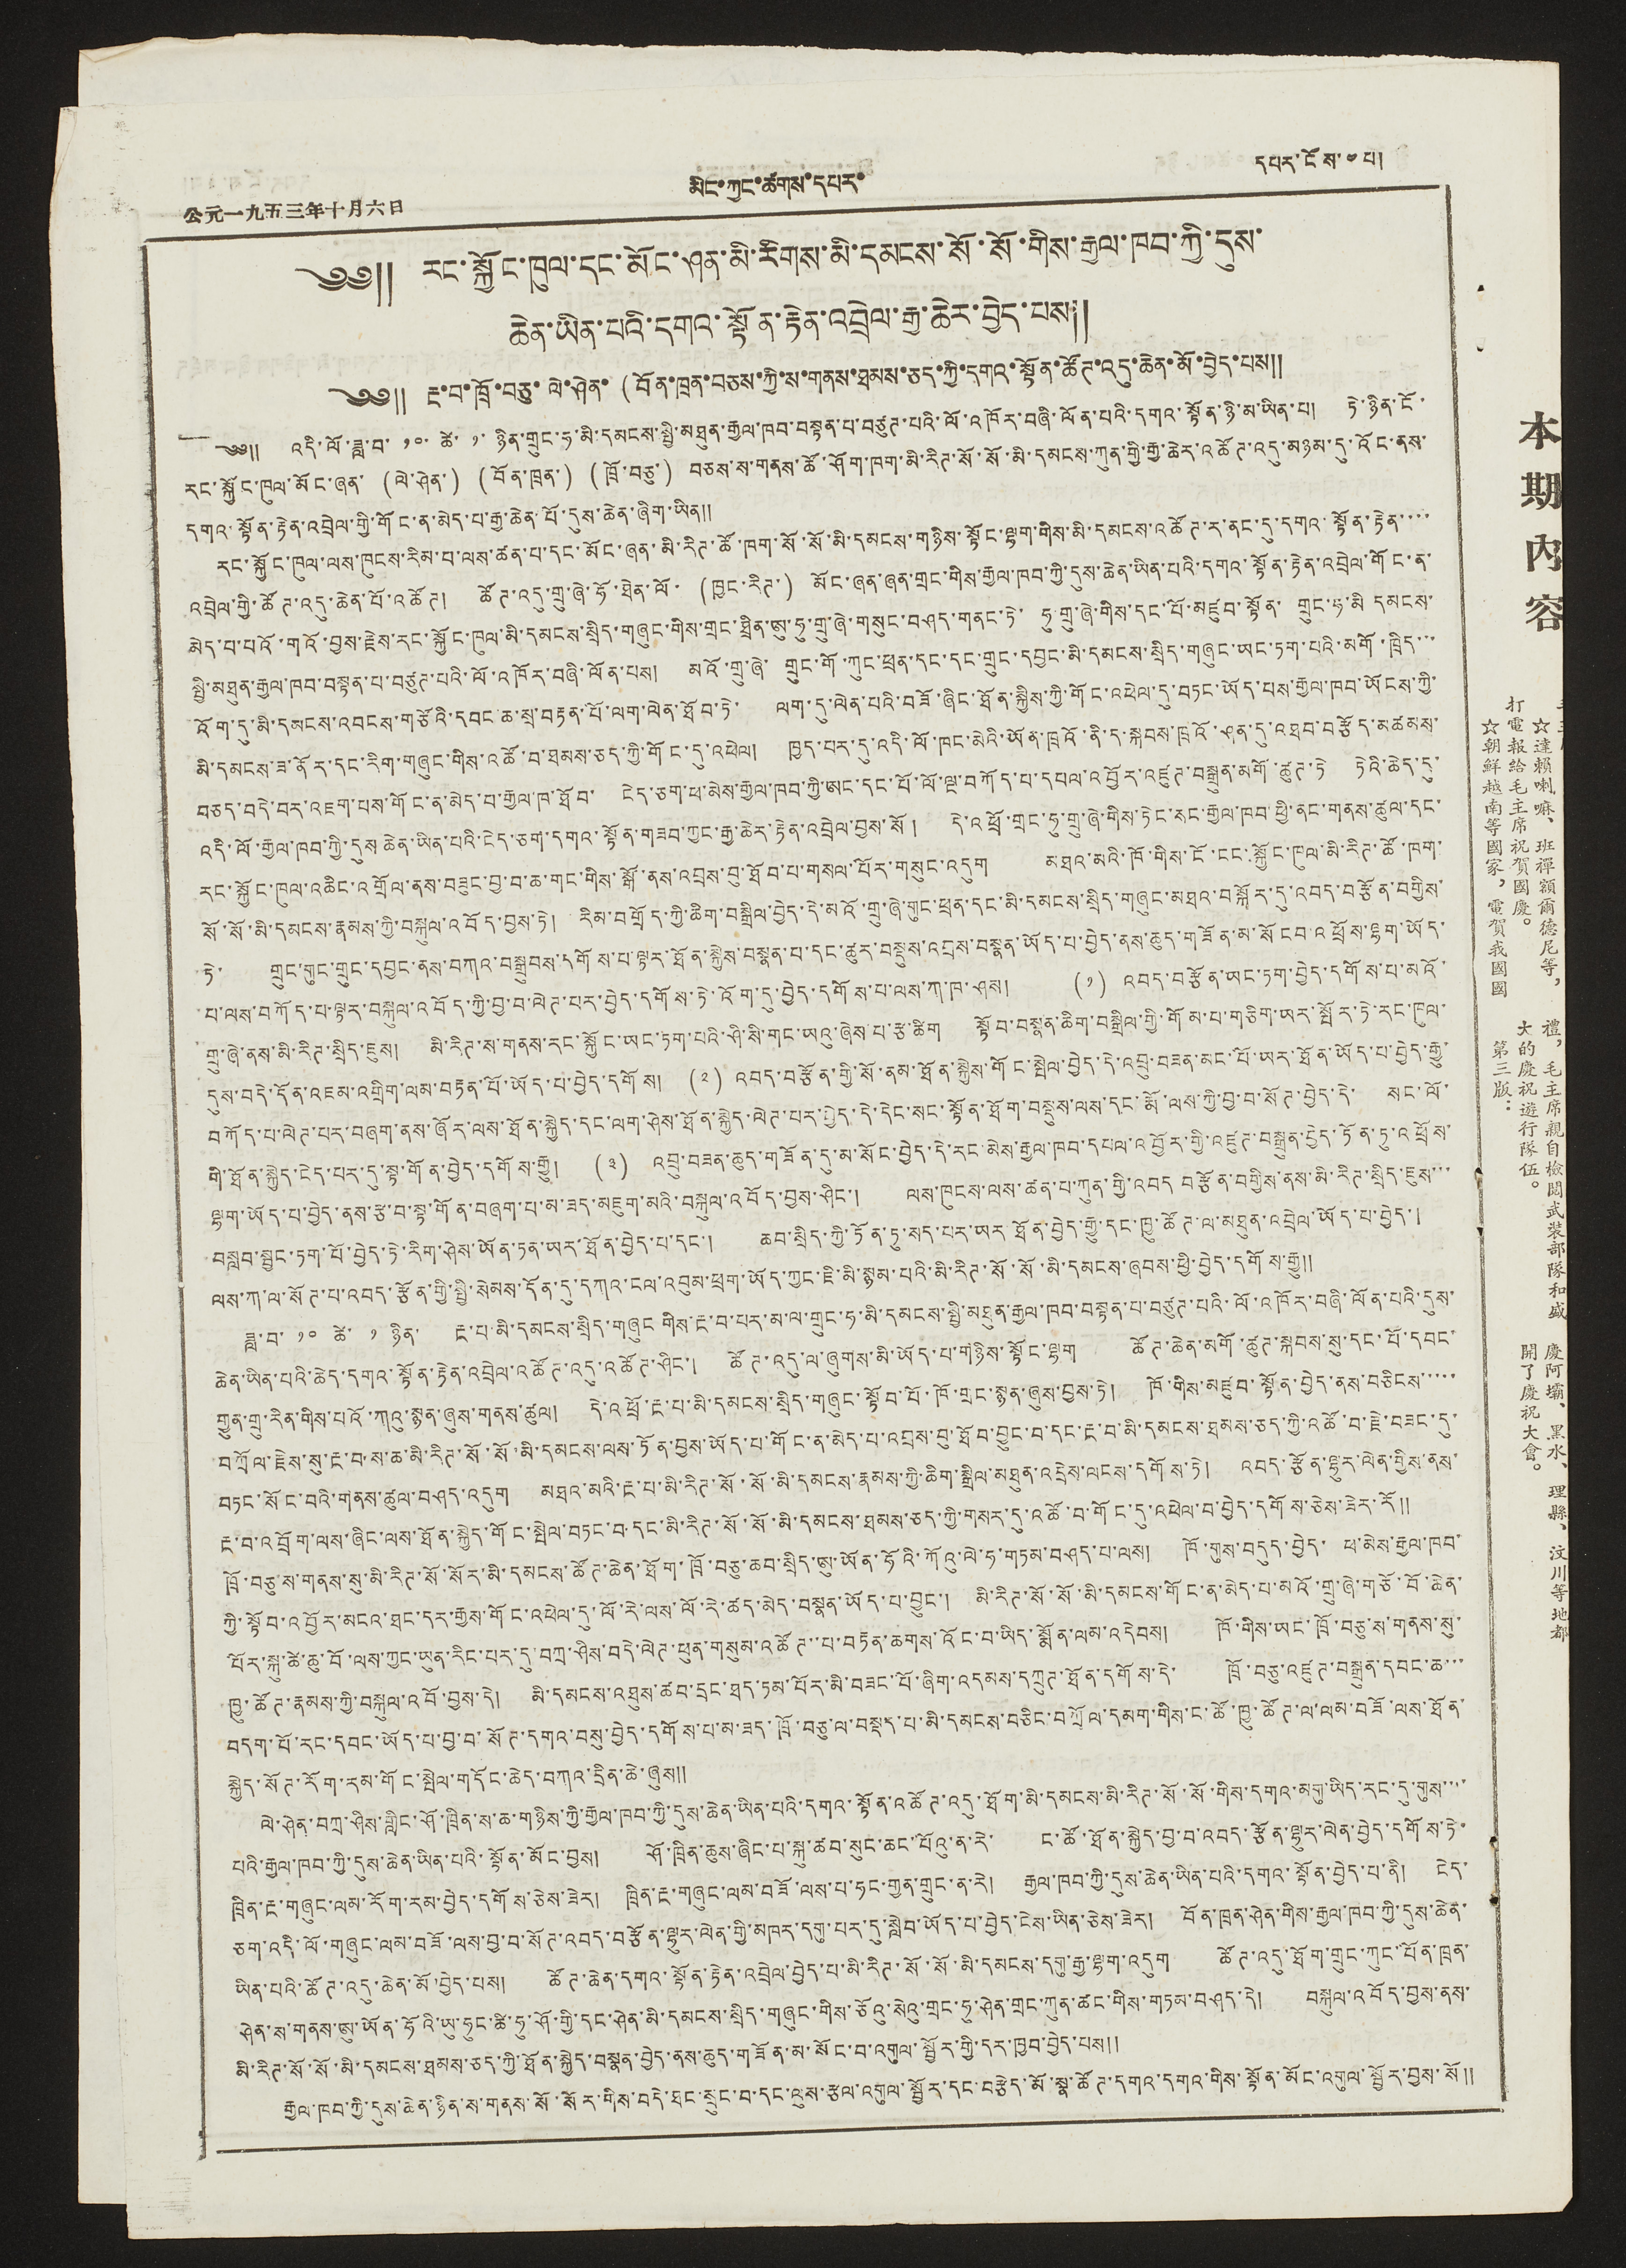公元一九五三年十月六日 མིང་ཀྱང་ཚགས་དཔར་ དཔར་ངོས་ ༤ པ།
༄༅༎ རང་སྐྱོང་ཁུལ་དང་མོང་ཤན་མི་རིགས་མི་དམངས་སོ་སོ་གིས་རྒྱལ་ཁབ་ཀྱི་དུས་
ཆེན་ཡིན་པའི་དགའ་སྟོན་རྟེན་འབྲེལ་རྒྱ་ཆེར་བྱེད་པས༎
༄༅༎ རྔ་བ་ཁྲོ་བཅུ་ལེ་ཤེན་ (བོན་ཁྲན་བཅས་ཀྱི་ས་གནས་ཐམས་ཅད་ཀྱི་དགའ་སྟོན་ཚོཊ་འདུ་ཆེན་མོ་བྱེད་པས༎
༄༅༎ འདི་ལོ་ཟླ་བ་ ༡༠་ ཚེ་ ༡་ ཉིན་གྲུང་ཧ་མི་དམངས་སྤྱི་མཐུན་རྒྱལ་ཁབ་བསྟན་པ་བཙུཊ་པའི་ལོ་འཁོར་བཞི་ལོན་པའི་དགའ་སྟོན་ཉི་མ་ཡིན་པ། ཏེ་ཉིན་ངོ་
རང་སྐྱོང་ཁུལ་མོང་ཞན་ (ལེ་ཤེན་) (བོན་ཁྲན་) (ཁྲོ་བཅུ་) བཅས་ས་གནས་ཚོ་ཤོག་ཁག་མི་རིཊ་སོ་སོ་མི་དམངས་ཀུན་གྱི་རྒྱ་ཆེར་འཚོཊ་འདུ་མཉམ་དུ་འོང་ནས་
དགའ་སྟོན་རྟེན་འབྲེལ་གྱི་གོང་ན་མེད་པ་རྒྱ་ཆེན་པོ་དུས་ཆེན་ཞིག་ཡིན༎
རང་སྐྱོང་ཁུལ་ལས་ཁུངས་རིམ་པ་ལས་ཚན་པ་དང་མོང་ཞན་མི་རིཊ་ཚོ་ཁག་སོ་སོ་མི་དམངས་གཉིས་སྟོང་ལྷག་གིས་མི་དམངས་འཚོཊ་ར་ནང་དུ་དགའ་སྟོན་རྟེན་་་་
འབྲེལ་གྱི་ཚོཊ་འདུ་ཆེན་པོ་འཚོཊ། ཚོཊ་འདུ་གྲུ་ཞེ་ཧོ་ཐེན་ལོ་ (ཁྱང་རིཊ་) མོང་ཞན་ཞན་གྲང་གིས་རྒྱལ་ཁབ་ཀྱི་དུས་ཆེན་ཡིག་པའི་དགའ་སྟོན་རྟེན་འབྲེལ་གོང་ན་
མེད་པ་པའོ་གའོ་བྱས་རྗེས་རང་སྐྱོང་ཁུལ་མི་དམངས་སྲིད་གཞུང་གིས་གྲང་ཐྲིན་ཨུ་ཧུ་གྲུ་ཞེ་གསུང་བཤད་གནས་ཏེ་ ཧུ་གྲུ་ཞེ་གིས་དང་པོ་མཛུབ་སྟོན་ གྲུང་ཧ་མི དམངས་
སྤྱི་མཐུན་རྒྱལ་ཁབ་བསྟན་པ་བཙུཊ་པའི་ལོ་འཁོར་བཞི་ལོན་པས། མའོ་གྲུ་ཞེ་ གྲུང་གོ་ཀུང་ཕྲན་དང་དང་གྲུང་དབྱང་མི་དམངས་སྲིད་གཞུང་ཡང་ཏག་པའི་མགོ་ཁྲིད་་་
འོག་དུ་མི་དམངས་འབངས་གཙོའི་དབང་ཆ་སྲ་བརྟན་པོ་ལག་ལེན་ཐོབ་ཏེ་ ལག་དུ་ལེན་པའི་བཟོ་ཞིང་ཐོན་སྐྱིས་ཀྱི་གོང་འཕེལ་དུ་བཏང་ཡོད་པས་རྒྱལ་ཁབ་ཡོངས་ཀྱི་
མི་དམངས་ཟ་ནོར་དང་རིག་གཞུང་གིས་འཚོ་བ་ཐམས་ཅད་ཀྱི་གོང་དུ་འཕེལ། ཁྱད་པར་དུ་འདི་ལོ་ཁང་མེའི་ཡོན་ཁྲའོ་ནི་ད་སྐབས་ཁྲའོ་ཤན་དུ་འཐབ་བརྩོད་མཚམས་
བཅད་བདེ་བར་འཇག་པས་གོང་ན་མེད་པ་རྒྱལ་ཁ་ཐོབ་ ངེད་ཅག་ཕ་མེས་རྒྱལ་ཁབ་ཀྱི་ཨང་དང་པོ་ལོ་ལྔ་བཀོད་པ་དཔལ་འབྱོར་འཛུཊ་བསྒྲུན་མགོ་ཚུཊ་ཏེ ཏེའི་ཆེད་དུ་
འདི་ལོ་རྒྱལ་ཁབ་ཀྱི་དུས ཆེན་པའི་ངེད་ཅག་དགའ་སྟོན་གཟབ་ཀྱང་རྒྱ་ཆེར་རྟེན་འབྲེལ་བྱས་སོ ། དེ་འཕྲོ་གྲང་ཧུ་གྲུ་ཞེ་གིས་ཏེང་སང་རྒྱལ་ཁབ་ཕྱི་ནང་གནས་ཚུལ་དང་
རང་སྐྱོང་ཁུལ་འཆིང་འགྲོལ་ནས་བཟུང་བྱ་བ་ཆ་གང་གིས་སྒོ་ནས་འབྲས་བུ་ཐོབ་པ་གསལ་པོར་གསུང་འདུག མཐའ་མའི་ཁོ་གིས་ངོ་ངང་སྐྱོང་ཁུལ་མི་རིཊ་ཚོ་ཁག་
སོ་སོ་མི་དམངས་རྣམས་ཀྱི་བསྐུལ་འབོད་བྱས་ཏེ། རིམ་བགྲོད་ཀྱི་ཆིག་བསྒྲིལ་བྱེད་དེ་མའོ་གྲུ་ཞེ་གུང་ཕྲན་དང་མི་དམངས་སྲིད་གཞུང་མཐའ་བསྐོར་དུ་འབད་བརྩོན་བགྱིས་
ཏེ་ གྲུང་གུང་གྲུང་དབྱང་ནས་བཀའ་བསྒྲུབས་དགོས་པ་ལྟར་ཐོན་སྐྱེས་བསྣན་པ་དང་ཚུར་བསྡུས་འབྲས་བསྣན་ཡོད་པ་བྱེད་ནས་ཆུད་གཟོན་མ་སོང བ་འཕྲོས་ལྷག་ཡོད་
པ་ལས་བཀོད་པ་ལྟར་བསྐུལ་འབོད་ཀྱི་བྱ་བ་ལེཊ་པར་བྱེད་དགོས་ཏེ་འོག་དུ་བྱེད་དགོས་པ་ལས་ཀ་ཁ་ཤས། (༡) འབད་བརྩོན་ཡང་ཏག་བྱེད་དགོས་པ་མའོ་
གྲུ་ཞེ་ནས་མི་རིཊ་སྲིད་ཇུས། མི་རིཊ་ས་གནས་རང་སྐྱོང་ཡང་ཏག་པའི་ཤི་སི་གང་ཡའུ་ཞེས་པ་རྩ་ཚིག སྟོབ་བསྣན་ཆིག་བསྒྲིལ་གྱི་གོམ་པ་གཅིག་ཡར་སྤོར་ཏེ་རང་ཁུལ་
དུས་བདེ་དོན་འཇམ་འགྲིག་ལམ་བརྟན་པོ་ཡོད་པ་བྱེད་དགོས། (༢) འབད་བརྩོན་གྱི་སོ་ནམ་ཐོན་སྐྱེས་གོང་སྤེལ་བྱེད་དེ་འབྲུ་བཟན་མང་པོ་ཡར་ཐོན་ཡོད་པ་བྱེད་རྒྱུ་
བཀོད་པ་ལེཊ་པར་བཞག་ནས་ཞོར་ལས་ཐོན་སྐྱེད་དང་ལག་ཤེས་ཐོན་སྐྱེད་ལེཊ་པར་བྱེད་དེ་དེང་སང་སྟོན་ཐོག་བསྡུས་ལས་དང་རྨོ་ལས་ཀྱི་བྱ་བ་སོཊ་བྱེད་དེ་ སང་ལོ་
གི་ཐོན་སྐྱེད་ངེད་པར་དུ་སྟ་གོན་བྱེད་དགོས་རྒྱུ། (༣) འབྲུ་བཟན་ཆུད་གཟོན་དུ་མ་སོང་བྱེད་དེ་རང་མེས་རྒྱལ་ཁབ་དཔལ་འབྱོར་གྱི་འཛུཊ་བསྒྲུན་བྱེད་ཏོན་ཏུ་འཕྲོས་
ལྷག་ཡོད་པ་བྱེད་ནས་རྩ་བ་སྟ་གོན་བཞག་པ་མ་ཟད་མཇུག་མའི་བསྐུལ་འབོད་བྱས་ཤིང་། ལས་ཁུངས་ལས་ཚན་པ་ཀུན་གྱི་འབད བརྩོན་བགྱིས་ནས་མི་རིཊ་སྲིད་ཇུས་་་
བསླབ་སྦྱང་ཏག་པོ་བྱེད་ཏེ་རིག་ཤེས་ཡོན་ཏན་ཡར་ཐོན་བྱེད་པ་དང་། ཆབ་སྲིད་ཀྱི་ཏོན་ཏུ་སད་པར་ཡར་ཐོན་བྱེད་རྒྱུ་དང་ཁྱུ་ཚོཊ་ལ་མཐུན་འབྲེལ་ཡོད་པ་བྱེད་།
ལས་ཀ་ལ་སོཊ་པ་འབད་རྩོན་གྱི་སྤྱི་སེམས་དོན་དུ་དཀའ་ངལ་འབུམ་ཕྲག་ཡོད་ཀྱང་ཇི་མི་སྙམ་པའི་མི་རིཊ་སོ་སོ་མི་དམངས་ཞབས་ཕྱི་བྱེད་དགོས་རྒྱུ༎
ཟླ་བ་ ༡༠ ཚེ་ ༡ ཉིན་ རྔ་པ་མི་དམངས་སྲིད་གཞུང གིས་རྔ་བ་པར་མ་ལ་གྲུང་ཧ་མི་དམངས་སྤྱི་མཐུན་རྒྱལ་ཁབ་བསྟན་པ་བཙུཊ་པའི་ལོ་འཁོར་བཞི་ལོན་པའི་དུས་
ཆེན་ཡིན་པའི་ཆེད་དགའ་སྟོན་རྟེན་འབྲེལ་འཚོཊ་འདུ་འཚོཊ་ཤིང་། ཚོཊ་འདུ་ལ་ཞུགས་མི་ཡོད་པ་གཉིས་སྟོང་ལྷག ཚོཊ་ཆེན་མགོ་ཚུཊ་སྐབས་སུ་དང་པོ་དབང་
གྱུན་གྲུ་རིན་གིས་པའོ་ཀའུ་སྙན་ཞུས་གནས་ཚུལ། དེ་འཕྲོ་རྔ་པ་མི་དམངས་སྲིད་གཞུང་སྟོབ་པོ་ཁོ་གྲང་སྙན་ཞུས་བྱས་ཏེ། ཁོ་གིས་མཛུབ་སྟོན་བྱེད་ནས་བཅིངས་་་་་
བཀྲོལ་རྗེས་སུ་རྔ་བ་ས་ཆ་མི་རིཊ་སོ་སོ་མི་དམངས་ལས་ཏོན་བྱས་ཡོད་པ་གོང་ན་མེད་པ་འབྲས་བུ་ཐོབ་བྱུང་བ་དང་རྔ་བ་མི་དམངས་ཐམས་ཅད་ཀྱི་འཚོ་བ་རྗེ་བཟང་དུ་
བཏང་སོང་བའི་གནས་ཚུལ་བཤད་འདུག མཐའ་མའི་རྔ་པ་མི་རིཊ་སོ་སོ་མི་དམངས་རྣམས་ཀྱི་ཆིག་སྒྲིལ་མཐུན་འདྲེས་ལངས་དགོས་ཏེ། འབད་རྩོན་ལྷུར་ལེན་གྱིས་ནས་
རྔ་བ་འབྲོག་ལས་ཞིང་ལས་ཐོན་སྐྱེད་གོང་སྤེལ་བཏང་བ་དང་མི་རིཊ་སོ་སོ་མི་དམངས་ཐམས་ཅད་ཀྱི་གསར་དུ་འཚོ་བ་གོང་དུ་འཕེལ་བ་བྱེད་དགོས་ཅེས་ཟེ་རོ༎
ཁྲོ་བཅུ་ས་གནས་སུ་མི་རིཊ་སོ་སོར་མི་དམངས་ཚོཊ་ཆེན་ཐོག་ཁྲོ་བཅུ་ཆབ་སྲིད་ཨུ་ཡོན་ཧོའི་ཀོའུ་ལེ་ཧ་གཏམ་བཤད་པ་ལས། ཁོ་གུས་བདུད་བྱེད་ ཕ་མེས་རྒྱལ་ཁབ་
ཀྱི་སྟོབ་འབྱོར་མངའ་ཐང་དར་རྒྱས་གོང་འཕེལ་དུ་ལོ་རེ་ལས་ལོ་རེ་ཚད་མེད་བསྣན་ཡོད་པ་བྱུང་། མི་རིཊ་སོ་སོ་མི་དམངས་གོང་ན་མེད་པ་མའོ་གྲུ་ཞེ་གཅོ་བོ་ཆེན་
པོར་སྐུ་ཚེ་ཆུ་བོ་ལས་ཀྱང་ཡུན་རིང་པར་དུ་བཀྲ་ཤིས་བདེ་ལེཊ་ཕུན་གསུམ་འཚོཊ་་པ་བརྟན་ཆགས་འོང་བ་ཡིད་སྨོན་ལམ་འདེབས། ཁོ་གིས་ཡང་ཁྲོ་བཅུ་ས་གནས་སུ་
ཁྱུ་ཚོཊ་རྣམས་ཀྱི་བསྐུལ་འབོ་བྱས་དེ། མི་དམངས་འཐུས་ཚབ་དྲང་ཐད་ཏམ་པོར་མི་བཟང་པོ་ཞིག་འདམས་དཀྲུཊ་ཐོན་དགོས་དེ་ ཁྲོ་བཅུ་འཛུཊ་བསྒྲུན་དབང་ཆ་་་
བདག་པོ་རང་དབང་ཡོད་པ་བྱ་བ་སོཊ་དགའ་བསུ་བྱེད་དགོས་པ་མ་ཟད་ཁྲོ་བཅུ་ལ་བསྡད་པ་མི་དམངས་བཅིང་བཀྲོལ་དམག་གིས་ང་ཚོ་ཁྱུ་ཚོཊ་ལ་ལམ་བཟོ་ལས་ཐོན་
སྐྱེད་སོཊ་རོག་རམ་གོང་སྤེལ་གདོང་ཆེད་བཀའ་དྲིན་ཆེ་ཞུས༎
ལེ་ཤེན་བཀྲ་ཤིས་གླིང་ཤོ་ཁྲིན་ས་ཆ་གཉིས་ཀྱི་རྒྱལ་ཁབ་ཀྱི་དུས་ཆེན་ཡིན་པའི་དགའ་སྟོན་འཚོཊ་འདུ་ཐོག་མི་དམངས་མི་རིཊ་སོ་སོ་གིས་དགའ་མགུ་ཡིད་རང་དུ་གུས་་་་
པའི་རྒྱལ་ཁབ་ཀྱི་དུས་ཆེན་ཡིན་པའི་སྟོན་མོང་བྱས། ཤོ་ཁྲིན་ཆུས་ཞིང་པ་སྐུ་ཚབ་སུང་ཆང་པོའུ་ན་རེ་ ང་ཚོ་ཐོན་སྐྱེད་བྱ་བ་འབད་རྩོན་ལྷུར་ལེན་བྱེད་དགོས་ཏེ་
ཁྲིན་རྔ་གཞུང་ལམ་རོག་རམ་བྱེད་དགོས་ཅེས་ཟེར། ཁྲིན་རྔ་གཞུང་ལམ་བཟོ་ལས་པ་ཧང་གྱན་གྲུང་ན་རེ། རྒྱལ་ཁབ་ཀྱི་དུས་ཆེན་ཡིན་པའི་དགའ་སྟོན་བྱེད་པ་ནི། ངེད་
ཅག་འདི་ལོ་གཞུང་ལམ་བཟོ་ལས་བྱ་བ་སོཊ་འབད་བརྩོན་ལྷུར་ལེན་གྱི་མཁར་དགུ་པར་དུ་སླེབ་ཡོད་པ་བྱེད་ངེས་ཡིན་ཅེས་ཟེར། བོན་ཁྲན་ཤེན་གིས་རྒྱལ་ཁབ་ཀྱི་དུས་ཆེན་
ཡིན་པའི་ཚོཊ་འདུ་ཆེན་མོ་བྱེད་པས། ཚོཊ་ཆེན་དགའ་སྟོན་རྟེན་འབྲེལ་བྱེད་པ་མི་རིཊ་སོ་སོ་མི་དམངས་དགུ་རྒྱ་ལྷག་འདུག ཚོཊ་འདུ་ཐོག་གྲུང་ཀུང་པོན་ཁྲན་
ཤེན་ས་གནས་ཨུ་ཡོན་ཧོའི་ཡུ་ཧུང་ཚི་ཧུ་ཤོ་གྱི་དང་ཤེན་མི་དམངས་སྲིད་གཞུང་གིས་ཅོའུ་སེའུ་གྲང་ཧུ་ཤེན་གྲང་ཀུན་ཚང་གིས་གཏམ་བཤད་དེ། བསྐུལ་འབོད་བྱས་ནས་
མི་རིཊ་སོ་སོ་མི་དམངས་ཐམས་ཅད་ཀྱི་ཐོན་སྐྱེད་བསྣན་བྱེད་ནས་ཆུད་གཟོན་མ་སོང་བ་འགུལ་སྦྱོར་གྱི་དར་ཁྱབ་བྱེད་པ༎
རྒྱལ་ཁབ་ཀྱི་དུས་ཆེན་ཉིན་ས་གནས་སོ་སོར་གིས་བདེ་ཐང་སྲུང་བ་དང་ལུས་རྩལ་འགུལ་སྦྱོར་དང་བརྩེད་མོ་སྣ་ཚོཊ་དགའ་དགའ་གིས་སྟོན་མོང་འགུལ་སྦྱོར་བྱས་སོ ༎
本 期 內 容
☆達賴喇嘛、班禪額爾德尼等，
打電報給毛主席祝賀國慶。
☆朝鮮越南等國家，電賀我國國
禮，毛主席親自檢閱武裝部隊和盛
大的慶祝遊行隊伍。
第三版：
慶阿壩、黑水、理縣、汶川等地都
開了慶祝大會。
